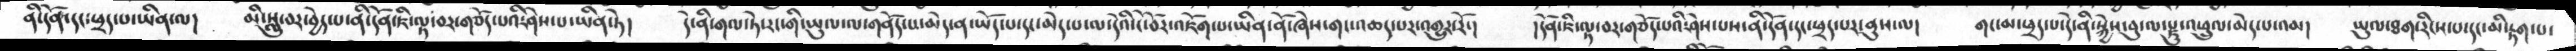ནི་དོན་དང་ཕྲད་པ་ཡིན་ལ།    མི་སླུ་བར་བྱེད་པ་ནི་དོན་ཇི་ལྟ་བར་གཅོད་པའི་ཤེས་པ་ཡིན་ཏེ།    དེ་ནི་གལ་ཏེ་རང་གི་ཡུལ་ལ་གནོད་པ་མེད་ན་ཡོད་པ་དང་མེད་པ་ལ་དེའི་ངོ་བོར་འཇོག་པ་ཡིན་ནོ་ཞེས་གང་འཆད་པར་འགྱུར་རོ་།    །དོན་ཇི་ལྟ་བར་གཅོད་པའི་ཤེས་པས་ནི་དོན་དང་ཕྲད་པར་ནུས་ལ།   གང་མ་ཕྲད་པ་དེ་ནི་སྐྱེས་བུ་ལ་རྫུ་འཕྲུལ་མེད་པ་འམ།   ཡུལ་ཐག་རིངས་པ་དང་མི་རྟག་པ་
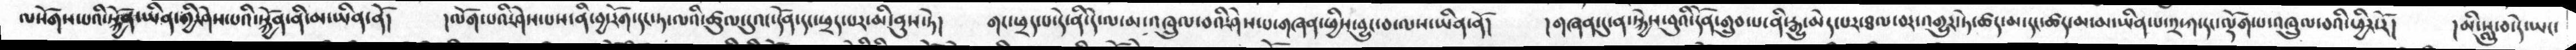ལསོགས་པའི་སྐྱོན་ཡིན་གྱི་ཤེས་པའི་སྐྱོན་ནི་མ་ཡིན་ནོ།   །ལོག་པའི་ཤེས་པས་ནི་བྱ་རོག་དང་ཏ་ལའི་ཚུལ་དུའང་དོན་དང་ཕྲད་པར་མི་ནུས་ཏེ།   གང་ཕྲད་པ་དེ་ནི་དེ་ལ་མའཁྲུལ་བའི་ཤེས་པ་གཞན་ཕྱིས་བྱུང་བ་ལས་ཡིན་ནོ།    །གཞན་དུ་ན་སྐྱེས་བུའི་དོན་གྲུབ་པ་ནི་རྒྱུ་མེད་པར་ཐལ་བར་འགྱུར་ཏེ་ཚད་མ་དང་ཚད་མ་མ་ཡིན་པ་༢་ཀ་དང་ལྡོག་པ་འཁྲུལ་བའི་ཕྱིར་རོ།   །མི་སླུ་བ་དེ་ཡང་
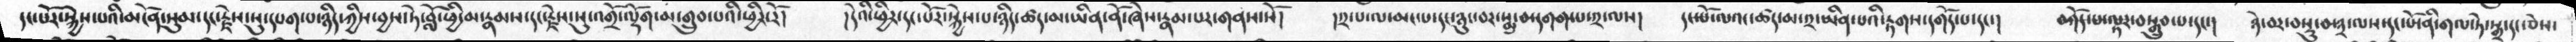དང་པོར་སྐྱེས་པའི་མངོན་སུམ་དང་རྗེས་སུ་དཔག་པ་ཉིད་ཀྱིས་བྱས་ཏེ་བློ་ཕྱི་མ་རྣམས་དང་རྗེས་སུ་འགྲོ་ལྡོག་མ་གྲུབ་པའི་ཕྱིར་རོ།    །དེའི་ཕྱིར་དང་པོར་སྐྱེས་པ་ཉིད་ཚད་མ་ཡིན་ནོ་ཞེས་རྣམ་པར་གནས་སོ།   །༢་པ་ལ་མང་པ་དང་ཉུང་བར་སྨྲ་བ་དགག་པ་༢་ལས།  དང་པོ་ལའང་ཚད་མ་༢་ཡིན་པའི་རྟགས་དགོད་པ་དང་།   བཀོད་པ་ལྟར་བསྒྲུབ་པ་དང་།   ཉེ་བར་བསྡུ་བ་༣་ལས་དང་པོ་ནི་གལ་ཏེ་སྒྲ་དང་ཅེས་
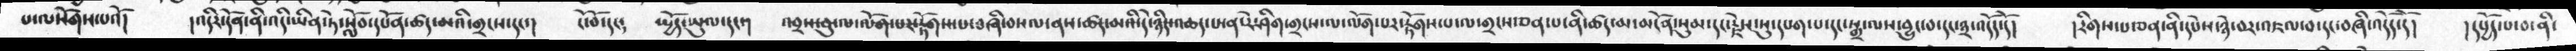པ་ལསོགས་པའོ།   །འདིར་དོན་ནི་འདི་ཡིན་ཏེ་སློབ་དཔོན་ཚད་མའི་གྲངས་དང་།   ངོ་བོ་དང༴  སྤྱོད་ཡུལ་དང་།   འབྲས་བུ་ལ་ལོག་པར་རྟོགས་པ་བཞི་བསལ་ནས་ཚད་མའི་དེ་ཉིད་འཆད་པ་ན་རེ་ཤིག་གྲངས་ལ་ལོག་པར་རྟོགས་པ་ལ་གྲངས་ཅན་པ་ནི་ཚད་མ་མངོན་སུམ་དང་རྗེས་སུ་དཔག་པ་དང་སྒྲ་ལས་བྱུང་བ་དང་༣་འདོད་དོ་།  །རིགས་པ་ཅན་ནི་དཔེས་ཉེ་བར་འཇལ་བ་དང་བཞི་འདོད་དོ།  །དཔྱོད་པ་བ་ནི་
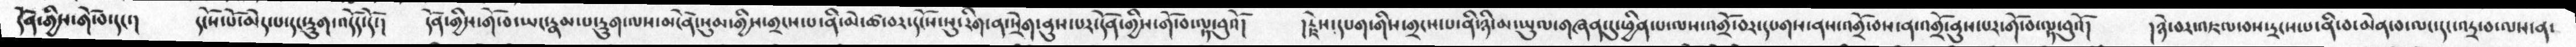དོན་གྱིས་གོ་བ་དང་།  དངོས་པོ་མེད་པ་དང་དྲུག་འདོད་དོ་།  དོན་གྱི་གོ་བ་ཡང་རྣམ་པ་དྲུག་ལས་མངོན་སུམ་གྱིས་གྲངས་པ་ནི་མེ་ཚ་བར་དངོས་སུ་རིག་ན་སྲེག་ནུས་པར་དོན་གྱིས་གོ་བ་ལྟ་བུའོ།  །རྗེས་དཔག་གིས་གྲངས་པ་ནི་ཉི་མ་ཡུལ་གཞན་དུ་ཕྱིན་པ་ལས་འགྲོ་བར་དཔགས་ནས་འགྲོ་བས་ན་འགྲོ་ནུས་པར་གོ་བ་ལྟ་བུའོ།  །ཉེ་བར་འཇལ་བས་དྲངས་པ་ནི་བ་མེན་བ་ལང་དང་འདྲ་བ་ལས་ན་
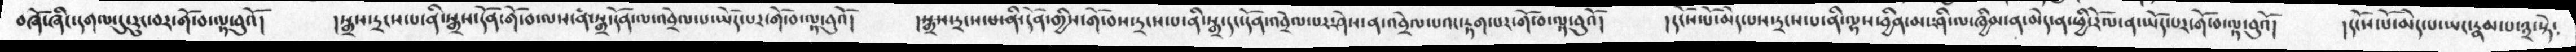བཞོ་ཞིང་དགལ་རུང་བར་གོ་བ་ལྟ་བུའོ།    །སྒྲས་དྲངས་པ་ནི་སྒྲས་དོན་གོ་བ་ལས་ནི་སྒྲ་དོན་ལ་འབྲེལ་པ་ཡོད་པར་གོ་བ་ལྟ་བུའོ།   །སྒྲས་དྲངས་པ་ནི་དོན་གྱིས་གོ་བས་དྲངས་པ་ནི་སྒྲ་དང་དོན་འབྲེལ་པར་ཤེས་ན་འབྲེལ་པའང་རྟག་པར་གོ་བ་ལྟ་བུའོ།  །དངོས་པོ་མེད་པས་དྲངས་པ་ནི་ལྷས་བྱིན་མ་ཤི་ལ་ཁྱིམ་ན་མེད་ན་ཕྱི་རོལ་ན་ཡོད་པར་གོ་བ་ལྟ་བུའོ།  །དངོས་པོ་མེད་པ་ཡང་རྣམ་པ་༣་སྟེ་
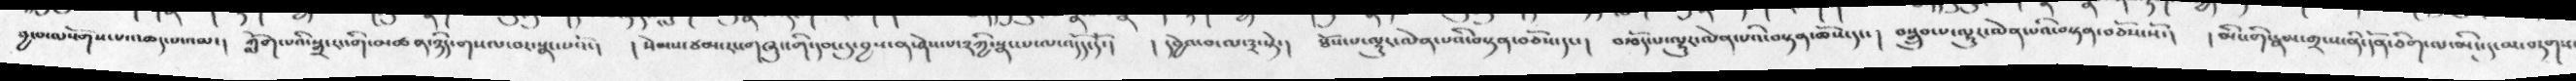བྱ་བ་ལསོགས་པ་འཆད་པ་འམ་།   ཀློག་པའི་སྒྲ་རང་གི་མཚན་ཉིད་གསལ་བར་སྣང་པའོ་།    ། སེམས་ཙམ་རང་གཞུང་གི་དབང་དུ་བྱས་ན་ཤེས་པ་༢ཀྱི་སྣང་པ་ལ་འདོད་དོ།     ། དབྱེའ་བ་ལ་༣་སྟེ་།   ཐོས་པ་ལྷུར་ལེན་པའི་བསྟན་བཅོས་དང་།   བརྩོད་པ་ལྷུར་ལེན་པའི་བསྟན་ཆོས་དང་།   བསྒྲུབ་པ་ལྷུར་ལེན་པའི་བསྟན་བཅོས་སོ་།   ། མིང་གི་རྣམ་གྲངས་ནི་དོན་ཅིག་ལ་མིང་དུ་མ་བཏགས
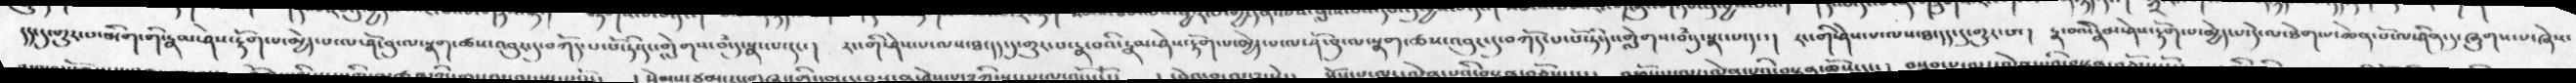དད་དུ་གྱུར་པ་མིག་གི་རྣམ་ཤེས་རྟོག་པ་མྱེད་པ་ལ་ཤོ་བུ་ལ་སྣག་ཚས་འབུར་དུ་བཀོད་པ་པོ་ཏི་དང་གླེགས་བཾ་དུ་སྣང་པ་དང་།   རང་གི་ཤེས་པ་ལས་ཐ་དད་དུ་གྱུར་པ་རྣ་བའི་རྣམ་ཤེས་རྟོག་པ་མྱེད་པ་ལ་ཤོ་བུ་ལ་སྣག་ཚས་འབུར་དུ་བཀོད་པ་པོ་ཏི་དང་གླེགས་བཾ་དུ་སྣང་པ་དང་།  རང་གི་ཤེས་པ་ལས་ཐ་དད་དུ་གྱུར་པ་།  རྣ་བའི་རྣམ་ཤེས་རྟོག་པ་མྱེད་པ་དེ་ལ་ཐེག་པ་ཆེན་པོ་ལ་ཤིན་དུ་ཞུགས་པ་ཞེས་
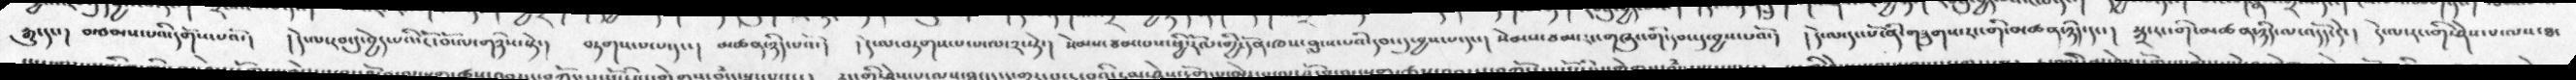རྒྱུ་དང་།  བརྩམས་པའི་དགོས་པའོ་།   །དེ་ལ་རབ་དུ་བྱེད་པའི་ངོ་བོ་ལ་གཉིས་སྟེ་།   བཏགས་པ་པ་དང་།   མཚན་ཉིད་པའོ་།   །དེ་ལ་བཏགས་པ་པ་ལ་༢་སྟེ་།  སེམས་ཙམ་པས་ཕྱི་རོལ་གྱི་དོན་ཁས་བླངས་པའི་དབང་དུ་བྱས་པ་དང་།  སེམས་ཙམ་རང་གཞུང་གི་དབང་དུ་བྱས་པའོ་།   །དེ་ལ་དང་པོ་ནི་གཟུགས་རང་གི་མཚན་ཉིད་དང་།  སྒྲ་རང་གི་མཚན་ཉིད་ལ་འདོད་དེ་།   དེ་ལ་རང་གི་ཤེས་པ་ལས་ཐ་
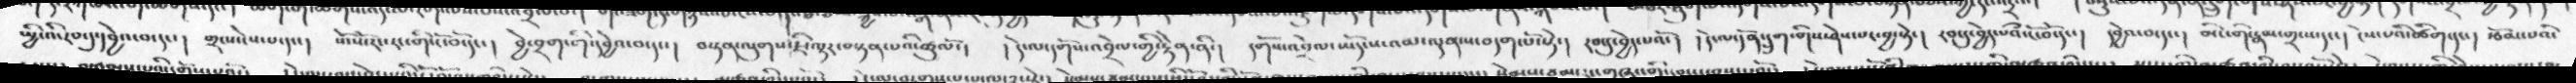སྤྱི་འི་རབ་དུ་དབྱེའ་བ་དང་།  གྲངས་ངེས་པ་དང་།  སོ་སོ་རང་རང་གི་ངོ་བོ་དང་།  བྱེ་བྲག་གི་དབྱེའ་བ་དང་།   བསྟན་ལུགས་ཇི་ལྟར་བསྟན་པའི་ཚུལོ་།   །དེ་ལདགོས་འབྲེལ་གྱི་རྟེན་ནི་།  དགོས་འབྲེལ་ཡོད་ས་འམ་ལྡན་ས་བདག་པོ་སྟེ་།  རབ་དུ་བྱེད་པའོ་།  །དེ་ལ་དོན་དྲུག་གིས་ཤེས་པར་བྱ་སྟེ་།  རབ་དུ་བྱེད་པའི་ངོ་བོ་དང་།  དབྱེའ་བ་དང་།  མིང་གི་རྣམ་གྲངས་དང་། ངེས་པའི་ཚིག་དང་།  རྩོམ་པའི་
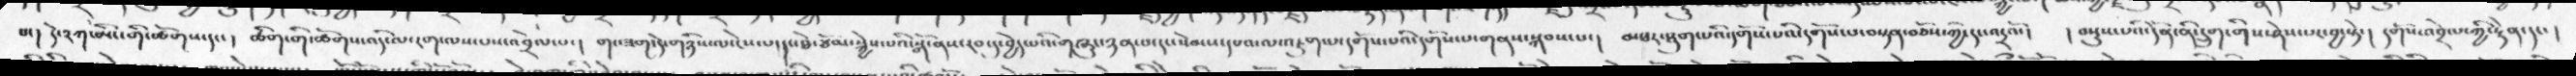པ་། དེ་༢ཀ་མིང་གི་ཚོགས་དང་།  ཚིག་གི་ཚོགས་འདི་ལ་རག་ལས་པས་འབྲེལ་པ་།  གང་ཟག་དེ་གཉིས་ལ་ངེས་པ་དང་ཐེ་ཙོམ་སྐྱེས་པའི་སྒོ་ནས་རབ་དུ་བྱེད་པའི་གཞུང་ཉན་པ་དང་སེམས་དཔའ་ལ་འཇུག་པ་དགོས་པའི་དགོས་པ་གནས་སྐབས་པ་།  མཐར་ཐུག་པའི་དགོས་པའི་དགོས་པ་བསྟན་བཅོས་ཀྱི་དང་འདྲའོ་།  །བསྡུས་པའི་དོན་ནི་དྲུག་གིས་ཤེས་པར་བྱ་སྟེ་།  དགོས་འབྲེལ་ཀྱི་རྟེན་དང་།
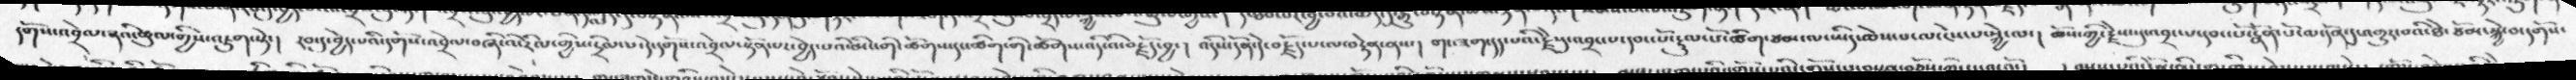དགོས་འབྲེལ་༤འི་ཚུལ་གྱིས་འཇུག་སྟེ་།  རབ་དུ་བྱེད་པའི་དགོས་འབྲེལ་བཞིའི་རིལ་གྱིས་དྲིལ་པ་དེ་དགོས་འབྲེལ་སྟོན་པར་བྱེད་པའི་མིང་གི་ཚོགས་དང་ཚིག་གི་་ཚོགས་འདི་འི་བརྗོད་བྱ་།  འདིས་དོན་དེ་བརྗོད་པ་ལ་བརྟེན་ནས་།  གང་ཟག་དད་པའི་རྗེསུ་འབྲང་པ་དབང་པོ་རྟུལ་པོ་ཚིག་ཙམ་ལ་ཡིད་ཆེས་པ་ལ་ངེས་པ་སྐྱེ་ལ་། ཆོས་ཀྱི་རྗེས་སུ་འབྲང་པ་དབང་པོ་རྣོན་པོ་ལ་དོན་དུ་འགྱུར་བའི་ཐེ་ཙོམ་སྐྱེ་བ་དགོས་
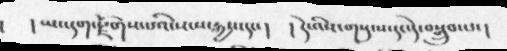།    ། ཡང་དག་རྫོགས་པའི་སངས་རྒྱས་དང་།  ། དེ་འིས་གསུངས་དང་དེ་བསྒྲུབ་པ་།
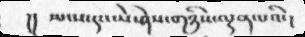།།  སྤངས་དང་ཡེ་ཤེས་གཉིས་ལྡན་པའི་།
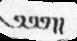༄༅༅།།
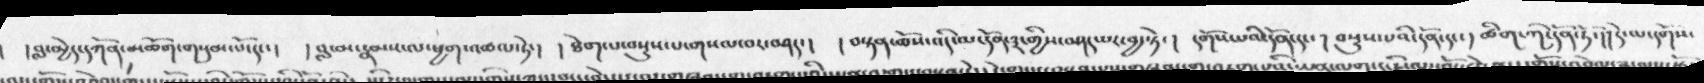།  །བླ་མྱེད་དཀོན་མཆོག་གསུམ་པོ་དང་།    །བླ་མ་རྣམས་ལ་ཕྱག་འཚལ་ཏེ་།  ། ཐེག་པ་བསྡུས་པ་གསལ་བར་བཤད་།   །བསྟན་ཆོས་འདི་ལ་དོན་༣་གྱིས་བཤད་པར་བྱ་སྟེ་ ། དགོས་པའི་དོན་དང་ ། བསྡུས་པའི་དོན་དང་ ། ཚིག་གི་དོན་ཏོ་།།དེ་ལ་དགོས་
